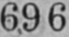696
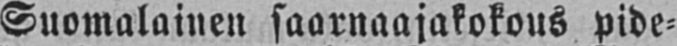Suomalainen saarnaajakokous pide-
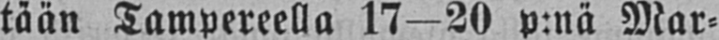tään Tampereella 17—20 p:nä Mar-
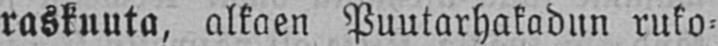raskuuta, alkaen Puutarhakadun ruko-
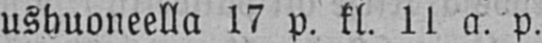ushuoneella 17 p. kl. 11 a. p.
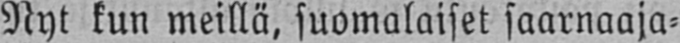Nyt kun meillä, suomalaiset saarnaaja-
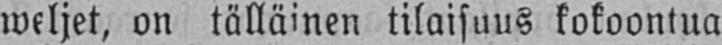weljet, on tälläinen tilaisuus kokoontua
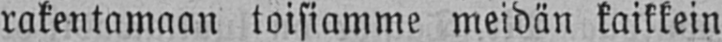rakentamaan toisiamme meidän kaikkein
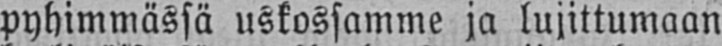pyhimmässä uskossamme ja lujittumaan
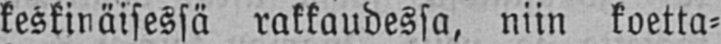keskinäisessä rakkaudessa, niin koetta-
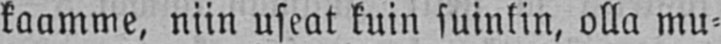kaamme, niin useat kuin suinkin, olla mu-
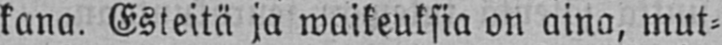kana. Esteitä ja waikeuksia on aina, mut-
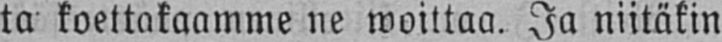ta koettakaamme ne woittaa. Ja niitäkin
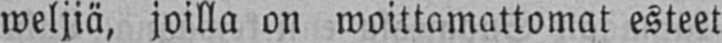weljiä, joilla on woittamattomat esteet
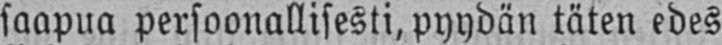saapua persoonallisesti, pyydän täten edes
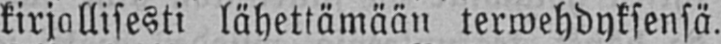kirjallisesti lähettämään terwehdyksensä.
